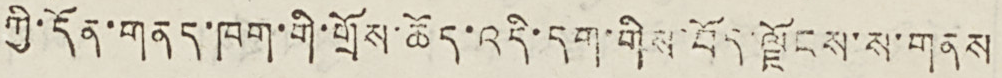ཀྱི་དོན་གནད་ཁག་གི་གྲོས་ཆོད་འདི་དག་གིས་བོད་ལྗོངས་ས་གནས
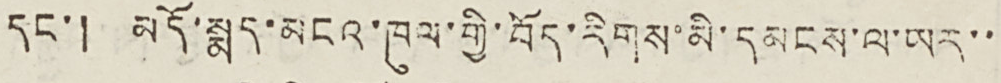དང་། མདོ་སྨད་མངའ་ཁུལ་གྱི་བོད་རིགས་མི་དམངས་ལ་ཡར་་
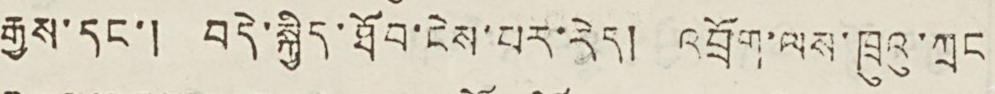རྒྱས་དང་། བདེ་སྐྱིད་ཐོབ་ངེས་པར་རེད། འབྲོག་ལས་ཁྲུའུ་ཀྲང
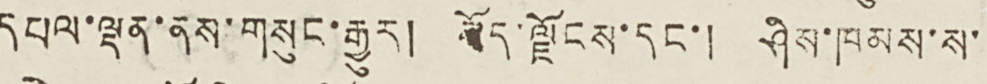དཔལ་ལྡན་ནས་གསུང་རྒྱུར། བོད་ལྗོངས་དང་། ཤིས་ཁམས་ས་
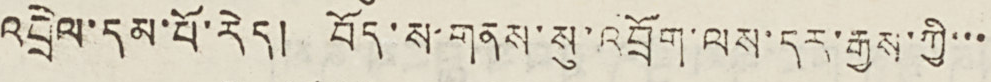འབྲེལ་དམ་པོ་རེད། བོད་ས་གནས་སུ་འབྲོག་ལས་དར་རྒྱས་ཀྱི་་་
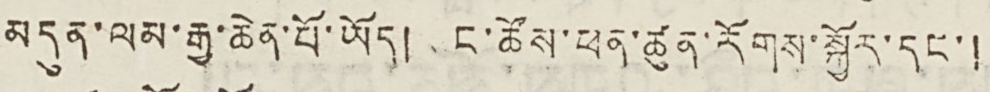མདུན་ལམ་རྒྱ་ཆེན་པོ་ཡོད། ང་ཚོས་ཕན་ཚུན་རོགས་སྐྱོར་དང་།
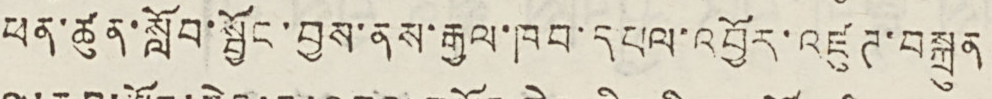ཕན་ཚུན་སློབ་སྦྱོང་བྱས་ནས་རྒྱལ་ཁབ་དཔལ་འབྱོར་འཛུཊ་བསྐྲུན
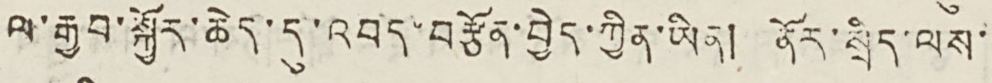ལ་རྒྱབ་སྐྱོར་ཆེད་དུ་འབད་བརྩོན་བྱེད་ཀྱིན་ཡིན། ནོར་སྲིད་ལས་
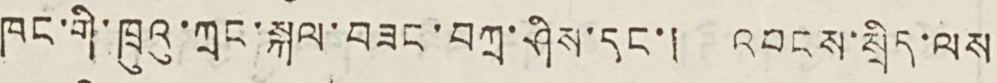ཁང་གི་ཁྲུའུ་ཀྲང་སྐལ་བཟང་བཀྲ་ཤིས་དང་། འབངས་སྲིད་ལས
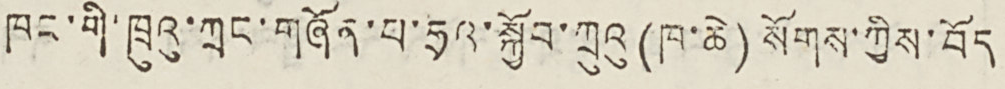ཁང་གི་ཁྲུའུ་ཀྲང་གཞོན་པ་ཧྲའ་སྐྱོབ་ཀྲུའུ(ཁ་ཆེ)སོགས་ཀྱིས་བོད
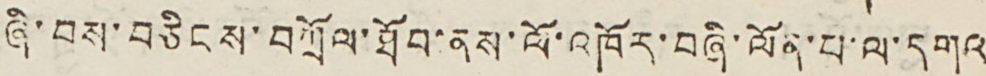ཞི་བས་བཅིངས་བཀྲོལ་ཐོབ་ནས་ལོ་འཁོར་བཞི་ལོན་པ་ལ་དགའ
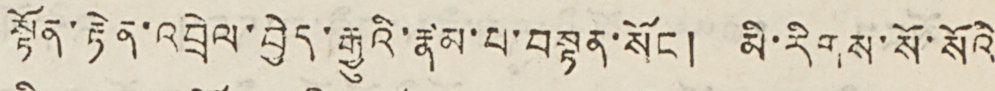སྟོན་རྟེན་འབྲེལ་བྱེད་རྒྱུའི་རྣམ་པ་བསྟན་སོང ། མི་རིགས་སོ་སོའི
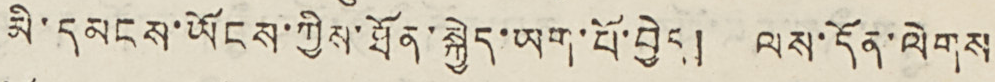མི་དམངས་ཡོངས་ཀྱིས་ཐོན་སྐྱེད་ཡག་པོ་བྱེད། ལས་དོན་ལེགས
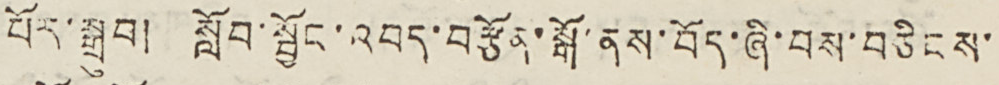པོར་སྒྲུབ། སློབ་སྦྱོང་འབད་བརྩོན་སྒོ་ནས་བོད་ཞི་བས་བཅིངས་
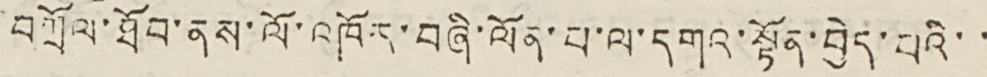བཀྲོལ་ཐོབ་ནས་ལོ་འཁོར་བཞི་ལོན་པ་ལ་དགའ་སྟོན་བྱེད་པའི་་
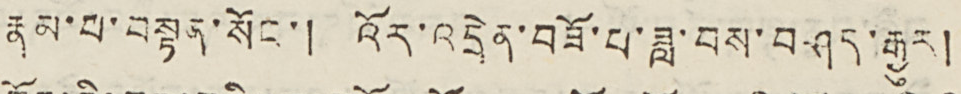རྣམ་པ་བསྟན་སོང་། འོར་འདྲེན་བཟོ་པ་ཟླ་བས་བཤད་རྒྱུར།
